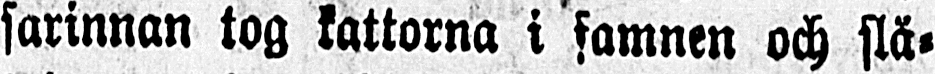sarinnan tog kattorna i famnen och slä-
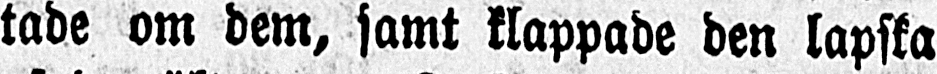tade om dem, samt klappade den lapska
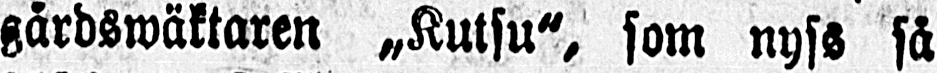gårdswäktaren „Kutsu", som nyss så
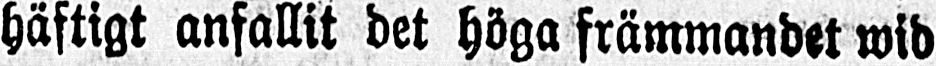häftigt anfallit det höga främmandet wid
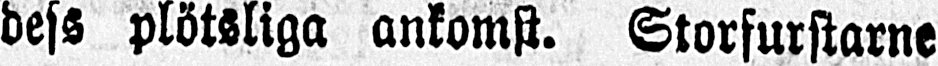dess plötsliga ankomst. Storfurstarne
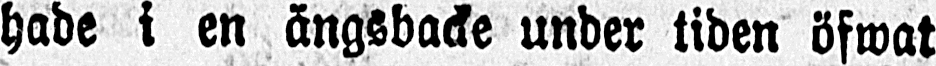hade i en ängsbacke under tiden öfwat
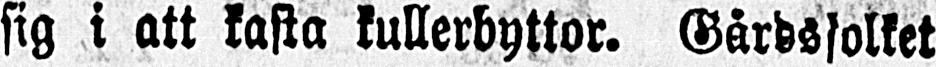sig i att kasta kullerbyttor. Gårdsfolket
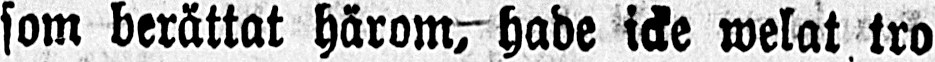som berättat härom, hade icke welat tro
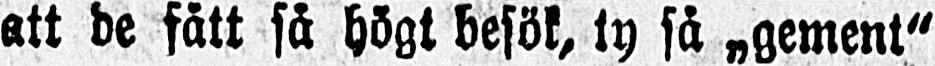att de fått så högt besök, ty så »gement"
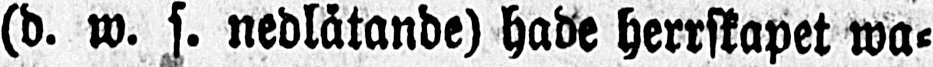(d. w. s. nedlåtande) hade herrskapet wa-
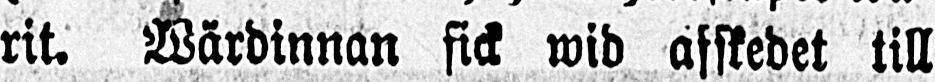rit. Wärdinnan fick wid afskedet till
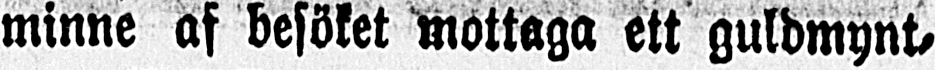minne af besöket mottaga ett guldmynt,
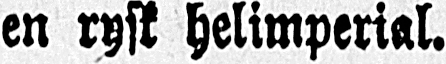en rysk helimperial.
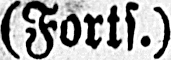(Forts.)
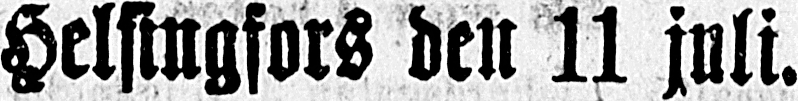Helsingfors den 11 juli.
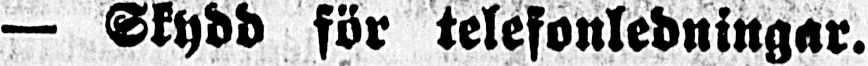— Skydd för telefonledningar.
